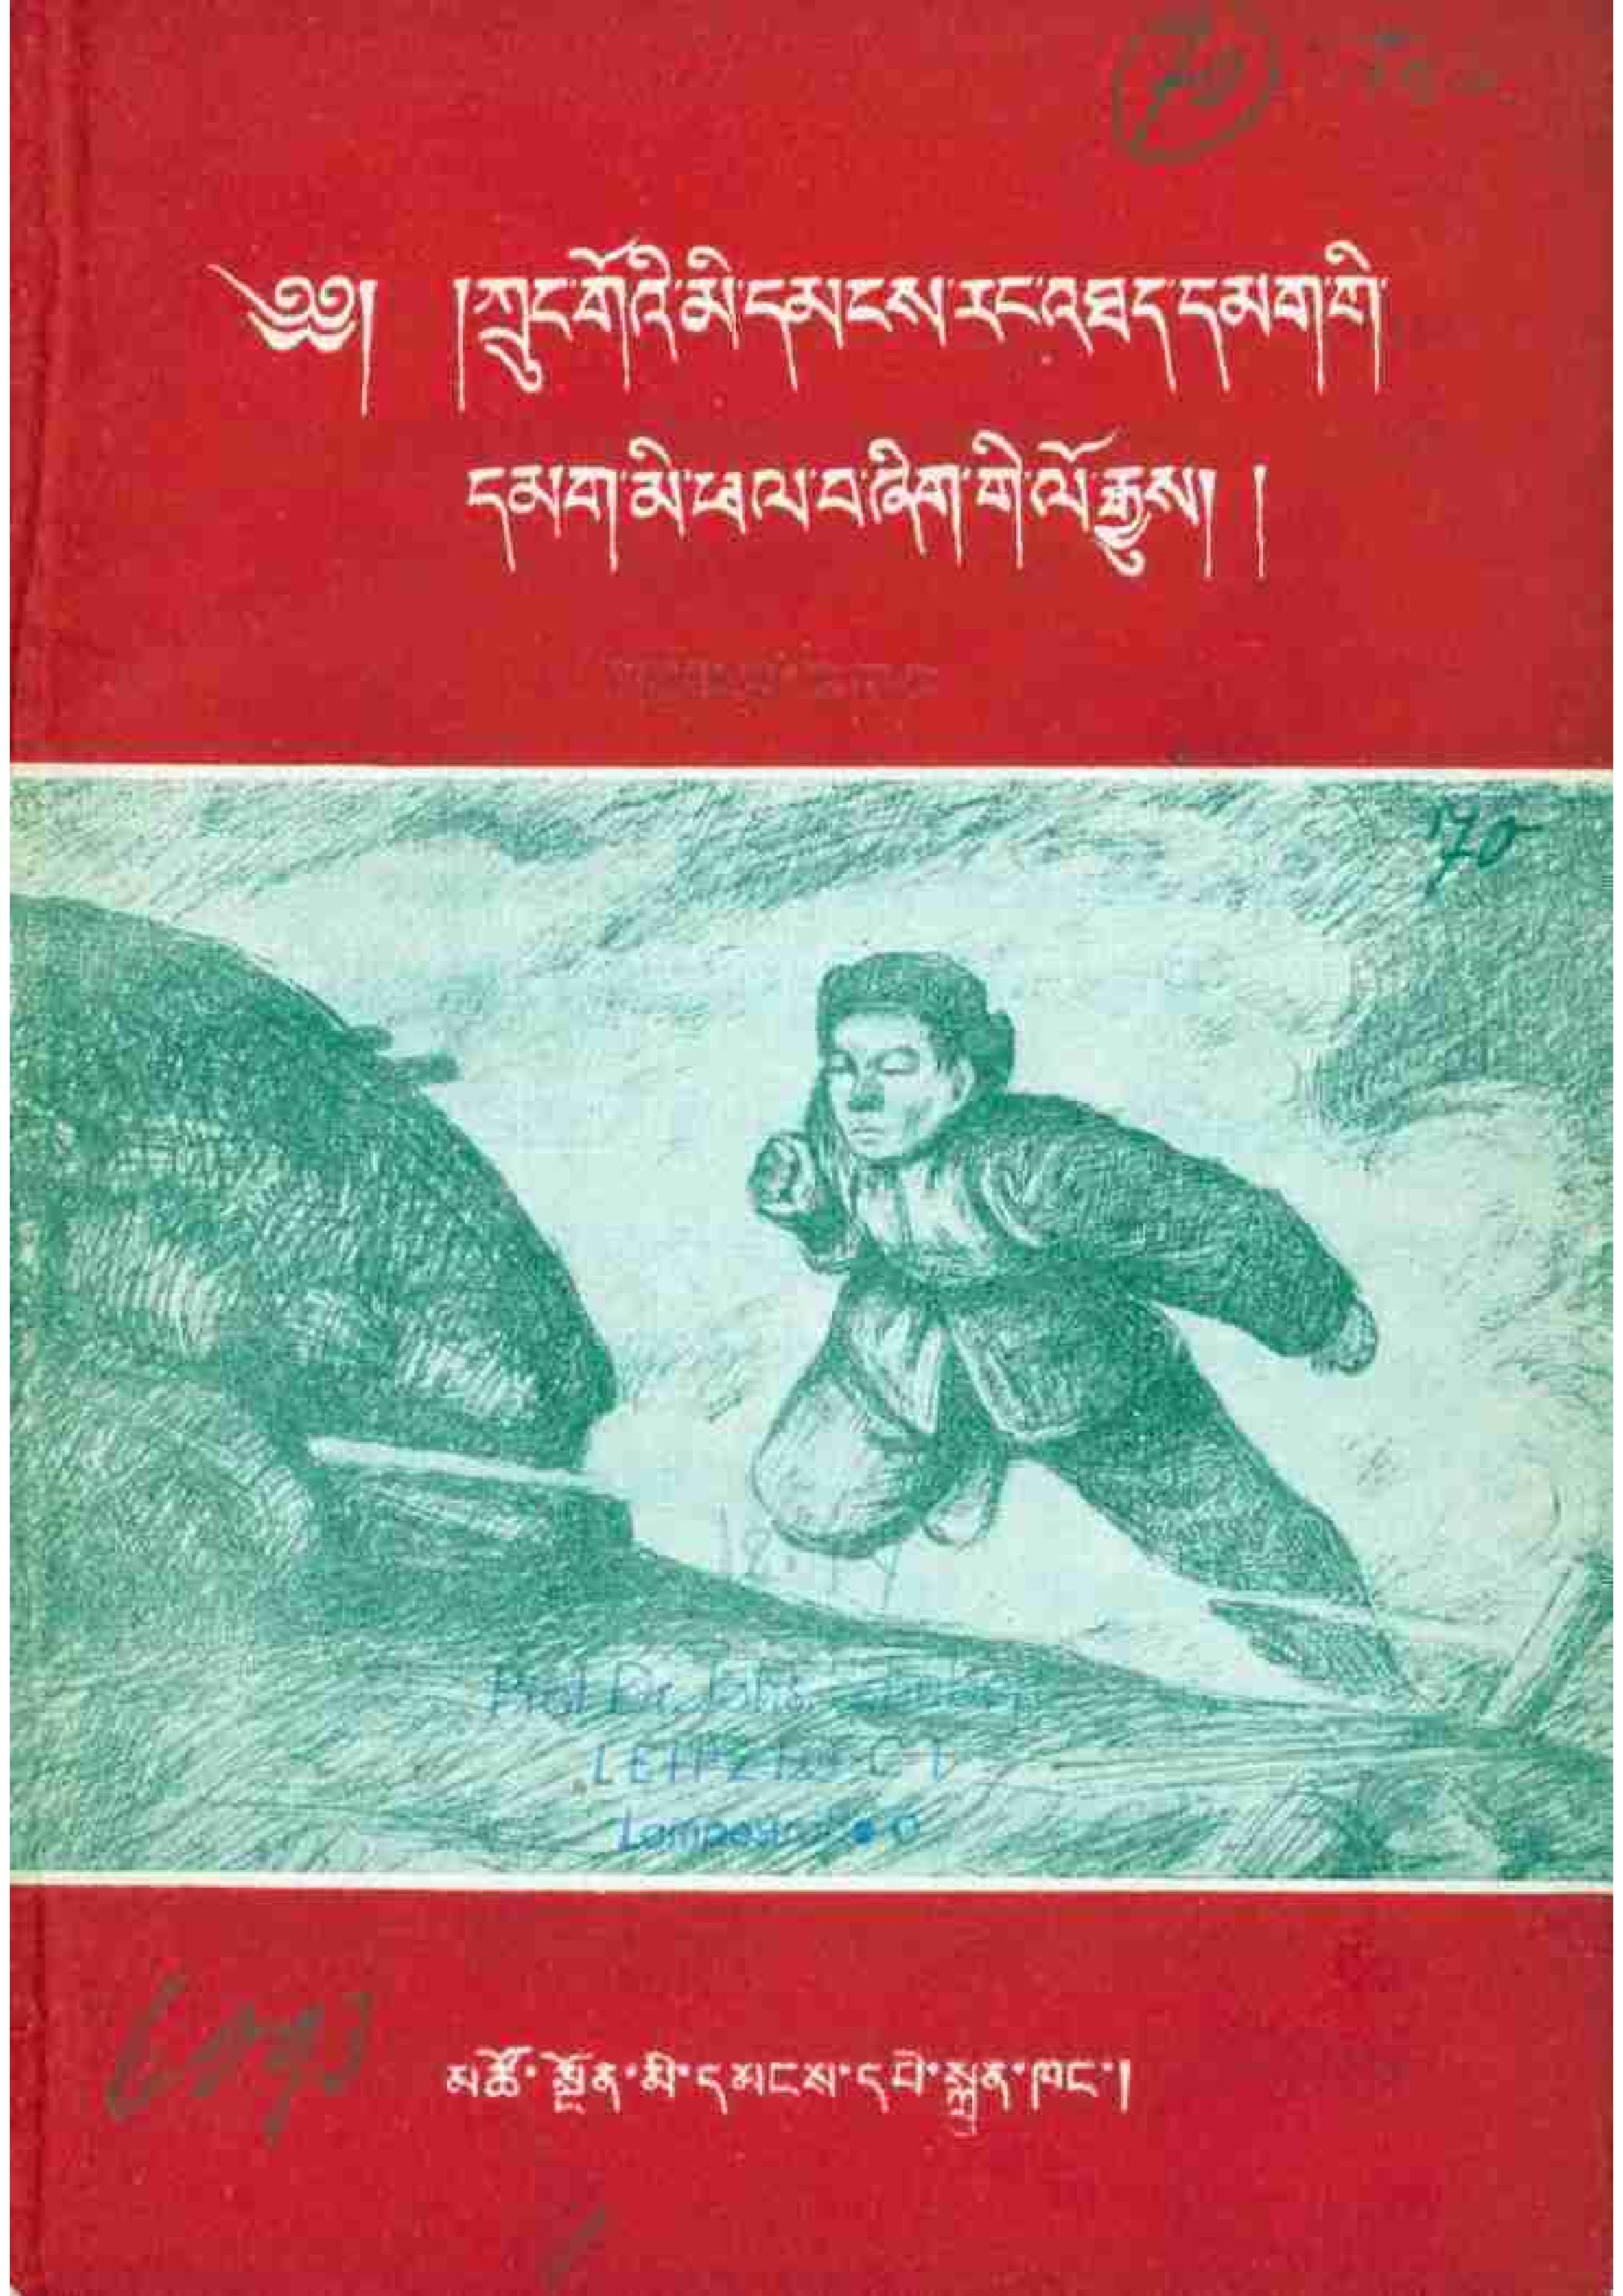༄༅། །ཀྲུང་གོའི་མི་དམངས་རང་འཐད་དམག་གི་
དམག་མི་ཕལ་བ་ཞིག་གི་ལོ་རྒྱུས། །
མཚོ་སྔོན་མི་དམངས་དཔེ་སྐྲུན་ཁང་།
